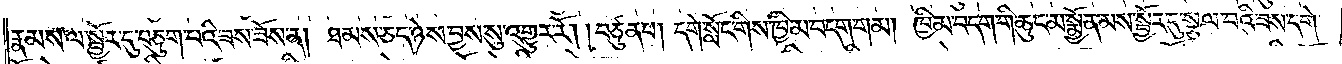རྣམས་ལ་སྦྱོར་དུ་བཅུག་པའི་ཟས་ཟོས་ན། ཐམས་ཅད་ཉེས་བྱས་སུ་འགྱུར་རོ། །བཙུན་པ། དགེ་སློང་གིས་ཁྱིམ་བདག་གམ། ཁྱིམ་བདག་གི་ཆུང་མ་སྨྱོན་མས་སྦྱོར་དུ་སྩལ་བའི་ཟས་དགེ་
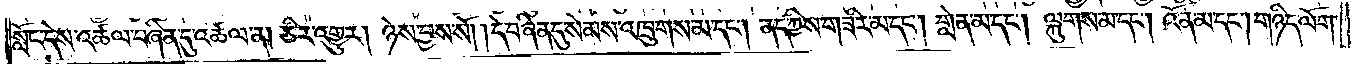སློང་དེས་འཚལ་བཞིན་དུ་འཚལ་ན། ཅིར་འགྱུར། ཉེས་བྱས་སོ། །དེ་བཞིན་དུ་སེམས་འཁྲུགས་མ་དང༌། ནད་ཀྱིས་གཟིར་མ་དང༌། གླེན་མ་དང༌། ལྐུགས་མ་དང༌། འོན་མ་དང༌། གཉིད་ལོག་
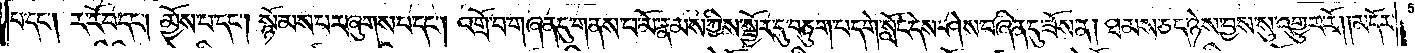པ་དང༌། ར་རོ་བ་དང༌། མྱོས་པ་དང༌། སྙོམས་པར་ཞུགས་པ་དང༌། འགྲོ་བ་གཞན་དུ་གནས་པ་མོ་རྣམས་ཀྱིས་སྦྱོར་དུ་བཅུག་པ་དགེ་སློང་དེས་ཤེས་བཞིན་དུ་ཟོས་ན། ཐམས་ཅད་ཉེས་བྱས་སུ་འགྱུར་རོ། །མདོར་
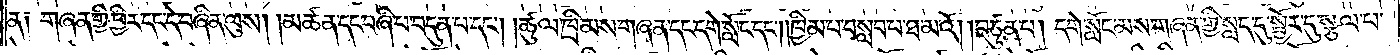ན། གཞན་གྱི་ཕྱིར་དང་དེ་བཞིན་ལུས། །མཚན་དང་བཞི་པ་བདུན་པ་དང༌། །ཚུལ་ཁྲིམས་གཞན་དང་དགེ་སློང་དང༌། །ཁྱིམ་པ་བསླབ་པ་ཐ་མའོ། །བཙུན་པ། དགེ་སློང་མས་གཞན་གྱི་སླད་དུ་སྦྱོར་དུ་སྩལ་པ་
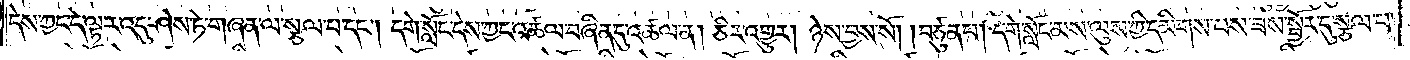དེས་ཀྱང་དེ་ལྟར་འདུ་ཤེས་ཏེ་གཞན་ལ་སྩལ་པ་དང༌། དགེ་སློང་དེས་ཀྱང་འཚལ་བཞིན་དུ་འཚལ་ན། ཅིར་འགྱུར། ཉེས་བྱས་སོ། །བཙུན་པ། དགེ་སློང་མས་ལུས་ཀྱི་དམིགས་པས་ཟས་སྦྱོར་དུ་སྩལ་པ་
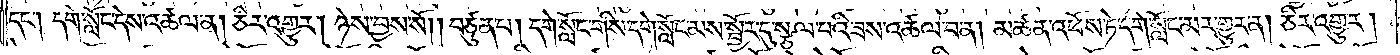དང༌། དགེ་སློང་དེས་འཚལ་ན། ཅིར་འགྱུར། ཉེས་བྱས་སོ། །བཙུན་པ། དགེ་སློང་གིས་དགེ་སློང་མས་སྦྱོར་དུ་སྩལ་པའི་ཟས་འཚལ་བ་ན། མཚན་འཕོས་ཏེ་དགེ་སློང་མར་གྱུར་ན། ཅིར་འགྱུར།
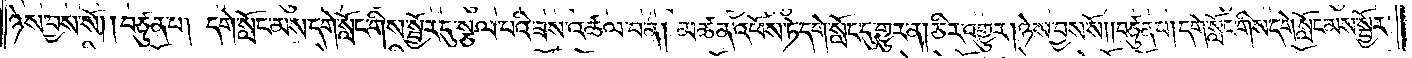ཉེས་བྱས་སོ། །བཙུན་པ། དགེ་སློང་མས་དགེ་སློང་གིས་སྦྱོར་དུ་སྩལ་པའི་ཟས་འཚལ་བ་ན། མཚན་འཕོས་ཏེ་དགེ་སློང་དུ་གྱུར་ན། ཅིར་འགྱུར། ཉེས་བྱས་སོ། །བཙུན་པ། དགེ་སློང་གིས་དགེ་སློང་མས་སྦྱོར་
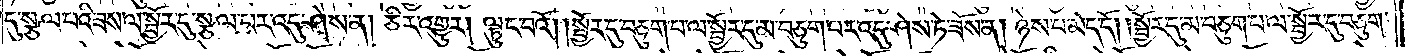དུ་སྩལ་པའི་ཟས་ལ་སྦྱོར་དུ་སྩལ་པར་འདུ་ཤེས་ན། ཅིར་འགྱུར། ལྟུང་བའོ། །སྦྱོར་དུ་བཅུག་པ་ལ་སྦྱོར་དུ་མ་བཅུག་པར་འདུ་ཤེས་ཏེ་ཟོས་ན། ཉེས་པ་མེད་དོ། །སྦྱོར་དུ་མ་བཅུག་པ་ལ་སྦྱོར་དུ་བཅུག་
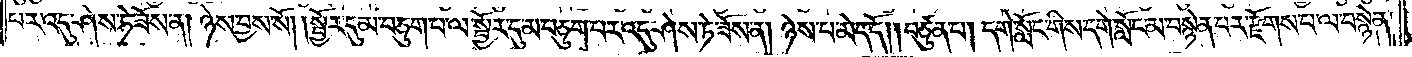པར་འདུ་ཤེས་ཏེ་ཟོས་ན། ཉེས་བྱས་སོ། །སྦྱོར་དུ་མ་བཅུག་པ་ལ་སྦྱོར་དུ་མ་བཅུག་པར་འདུ་ཤེས་ཏེ་ཟོས་ན། ཉེས་པ་མེད་དོ། །བཙུན་པ། དགེ་སློང་གིས་དགེ་སློང་མ་བསྙེན་པར་རྫོགས་པ་ལ་བསྙེན་
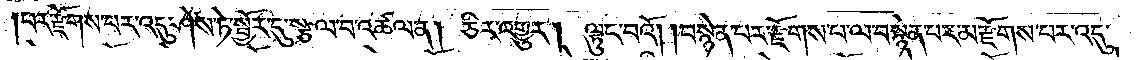།པར་རྫོགས་པར་འདུ་ཤེས་ཏེ་སྦྱོར་དུ་སྩལ་བ་འཚལ་ན། ཅིར་འགྱུར། ལྟུང་བའོ། །བསྙེན་པར་རྫོགས་པ་ལ་བསྙེན་པར་མ་རྫོགས་པར་འདུ་
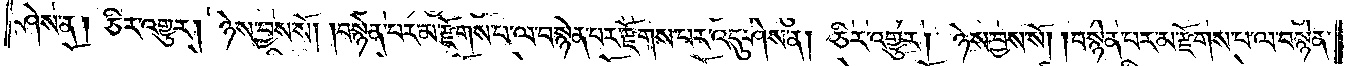ཤེས་ན། ཅིར་འགྱུར། ཉེས་བྱས་སོ། །བསྙེན་པར་མ་རྫོགས་པ་ལ་བསྙེན་པར་རྫོགས་པར་འདུ་ཤེས་ན། ཅིར་འགྱུར། ཉེས་བྱས་སོ། །བསྙེན་པར་མ་རྫོགས་པ་ལ་བསྙེན་
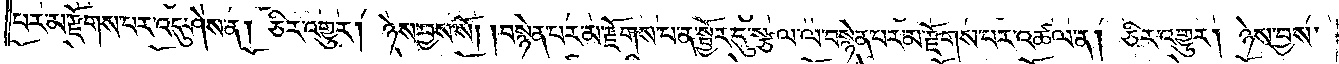པར་མ་རྫོགས་པར་འདུ་ཤེས་ན། ཅིར་འགྱུར། ཉེས་བྱས་སོ། །བསྙེན་པར་མ་རྫོགས་པ་ན་སྦྱོར་དུ་སྩལ་ལ་བསྙེན་པར་མ་རྫོགས་པར་འཚལ་ན། ཅིར་འགྱུར། ཉེས་བྱས་
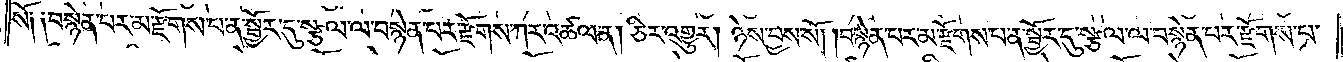སོ༑ ༑བསྙེན་པར་མ་རྫོགས་པ་ན་སྦྱོར་དུ་སྩལ་ལ་བསྙེན་པར་རྫོགས་ཀར་འཚལ་ན། ཅིར་འགྱུར། ཉེས་བྱས་སོ། །བསྙེན་པར་མ་རྫོགས་པ་ན་སྦྱོར་དུ་སྩལ་ལ་བསྙེན་པར་རྫོགས་པ་
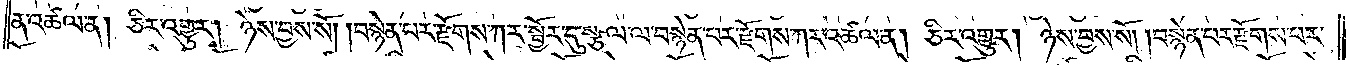ན་འཚལ་ན། ཅིར་འགྱུར། ཉེས་བྱས་སོ། །བསྙེན་པར་རྫོགས་ཀར་སྦྱོར་དུ་སྩལ་ལ་བསྙེན་པར་རྫོགས་ཀར་འཚལ་ན། ཅིར་འགྱུར། ཉེས་བྱས་སོ། །བསྙེན་པར་རྫོགས་པར་
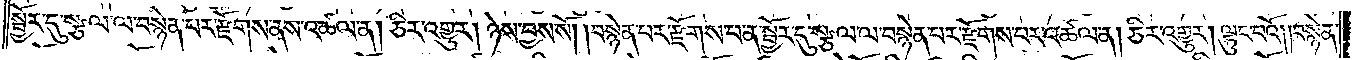སྦྱོར་དུ་སྩལ་ལ་བསྙེན་པར་རྫོགས་ནས་འཚལ་ན། ཅིར་འགྱུར། ཉེས་བྱས་སོ། །བསྙེན་པར་རྫོགས་པ་ན་སྦྱོར་དུ་སྩལ་ལ་བསྙེན་པར་རྫོགས་པར་འཚལ་ན། ཅིར་འགྱུར། ལྟུང་བའོ། །བསྙེན་
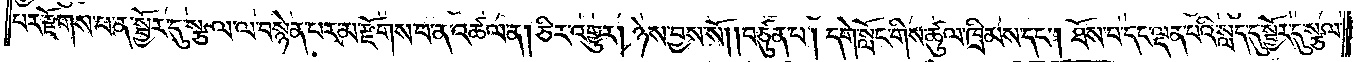པར་རྫོགས་པ་ན་སྦྱོར་དུ་སྩལ་ལ་བསྙེན་པར་མ་རྫོགས་པ་ན་འཚལ་ན། ཅིར་འགྱུར། ཉེས་བྱས་སོ། །བཙུན་པ། དགེ་སློང་གིས་ཚུལ་ཁྲིམས་དང༌། ཐོས་པ་དང་ལྡན་པའི་སླད་དུ་སྦྱོར་དུ་སྩལ་
